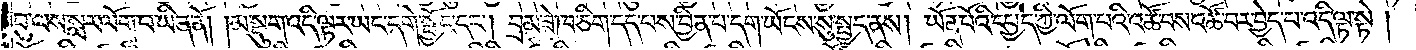བུ་ལས་སླར་ལོག་པ་ཡིན་ནོ། །མ་སྡུག་འདི་ལྟར་ཡང་དགེ་སྦྱོང་དང༌། བྲམ་ཟེ་ཁ་ཅིག་དད་པས་བྱིན་པ་དག་ཡོངས་སུ་སྤྱད་ནས། ཡོན་པོའི་དཔྱད་ཀྱི་ལོག་པའི་འཚོ་བར་བྱེད་པ་འདི་ལྟ་སྟེ།
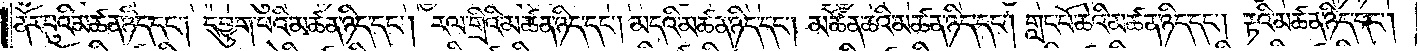ནོར་བུའི་མཚན་ཉིད་དང༌། དབྱུག་པའི་མཚན་ཉིད་དང༌། རལ་གྲིའི་མཚན་ཉིད་དང༌། མདའི་མཚན་ཉིད་དང༌། མཚོན་ཆའི་མཚན་ཉིད་དང༌། གླང་པོ་ཆེའི་མཚན་ཉིད་དང༌། རྟའི་མཚན་ཉིད་དང༌།
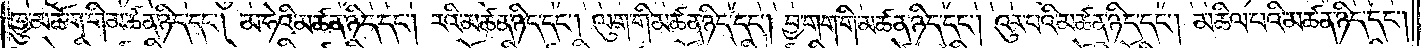ཁྱུ་མཆོག་གི་མཚན་ཉིད་དང༌། མ་ཧེའི་མཚན་ཉིད་དང༌། རའི་མཚན་ཉིད་དང༌། ལུག་གི་མཚན་ཉིད་དང༌། བྱ་གག་གི་མཚན་ཉིད་དང༌། འུར་པའི་མཚན་ཉིད་དང༌། མཆིལ་པའི་མཚན་ཉིད་དང༌།
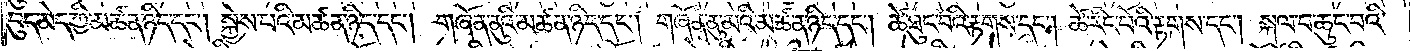བུད་མེད་ཀྱི་མཚན་ཉིད་དང༌། སྐྱེས་པའི་མཚན་ཉིད་དང༌། གཞོན་ནུའི་མཚན་ཉིད་དང༌། གཞོན་ནུ་མའི་མཚན་ཉིད་དང༌། ཚེ་ཐུང་བའི་རྟགས་དང༌། ཚེ་རིང་པོའི་རྟགས་དང༌། སྐལ་པ་ཆུང་བའི་
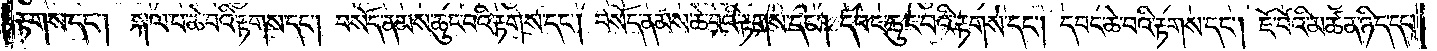རྟགས་དང༌། སྐལ་པ་ཆེ་བའི་རྟགས་དང༌། བསོད་ནམས་ཆུང་བའི་རྟགས་དང༌། བསོད་ནམས་ཆེ་བའི་རྟགས་དང༌། དབང་ཆུང་བའི་རྟགས་དང༌། དབང་ཆེ་བའི་རྟགས་དང༌། ཇོ་བོའི་མཚན་ཉིད་དང་།
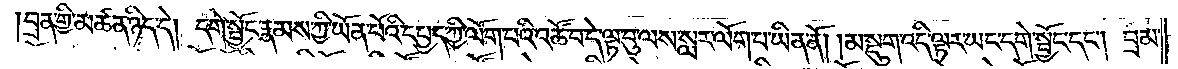བྲན་གྱི་མཚན་ཉིད་དེ། དགེ་སྦྱོང་རྣམས་ཀྱི་ཡོན་པོའི་དཔྱད་ཀྱི་ལོག་པའི་འཚོ་བ་དེ་ལྟ་བུ་ལས་སླར་ལོག་པ་ཡིན་ནོ། །མ་སྡུག་འདི་ལྟར་ཡང་དགེ་སྦྱོང་དང༌། བྲམ་
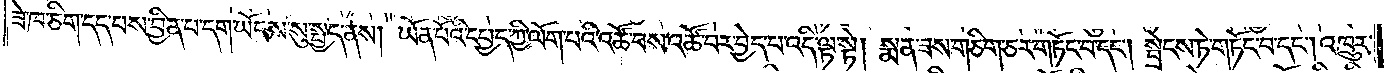ཟེ་ཁ་ཅིག་དད་པས་བྱིན་པ་དག་ཡོངས་སུ་སྤྱད་ནས། ཡོན་པོའི་དཔྱད་ཀྱི་ལོག་པའི་འཚོ་བས་འཚོ་བར་བྱེད་པ་འདི་ལྟ་སྟེ། སྨན་ཟས་གཅིག་ཅར་གཏོང་བ་དང༌། སྦྲེངས་ཏེ་གཏོང་བ་དང༌། འཁྲུར་
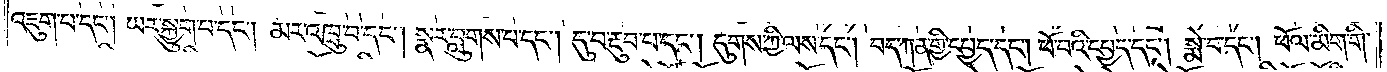འཇུག་པ་དང༌། ཡར་སྐྱུག་པ་དང༌། མར་འཁྲུ་བ་དང༌། སྣར་བླུགས་པ་དང༌། དུ་བ་རྔུབ་པ་དང༌། དུགས་ཀྱི་ལས་དང༌། བད་ཀན་གྱི་དཔྱད་དང༌། ཕོ་བའི་དཔྱད་དང༌། སྨེ་བ་དང༌། ཕོལ་མིག་གི་
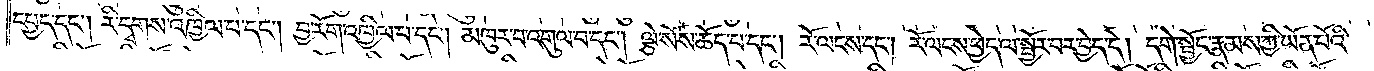དཔྱད་དང༌། རི་དྭགས་འཁྱིལ་པ་དང༌། བྱ་རོག་འཁྱིལ་པ་དང༌། མཁུར་བ་འགུལ་བ་དང༌། ལྕེ་སོས་ཆོད་པ་དང༌། རོ་ལངས་དང༌། རོ་ལངས་ཕྱེད་ལ་སྦྱོར་བར་བྱེད་དེ། དགེ་སྦྱོང་རྣམས་ཀྱི་ཡོན་པོའི་
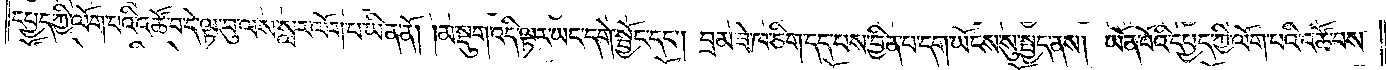དཔྱད་ཀྱི་ལོག་པའི་འཚོ་བ་དེ་ལྟ་བུ་ལས་སླར་ལོག་པ་ཡིན་ནོ། །མ་སྡུག་འདི་ལྟར་ཡང་དགེ་སྦྱོང་དང༌། བྲམ་ཟེ་ཁ་ཅིག་དད་པས་བྱིན་པ་དག་ཡོངས་སུ་སྤྱད་ནས། ཡོན་པོའི་དཔྱད་ཀྱི་ལོག་པའི་འཚོ་བས་
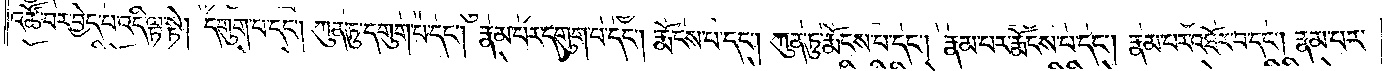འཚོ་བར་བྱེད་པ་འདི་ལྟ་སྟེ། དགུག་པ་དང༌། ཀུན་ཏུ་དགུག་པ་དང༌། རྣམ་པར་དགུག་པ་དང༌། རྨོངས་པ་དང༌། ཀུན་ཏུ་རྨོངས་པ་དང༌། རྣམ་པར་རྨོངས་པ་དང༌། རྣམ་པར་འཐོར་བ་དང༌། རྣམ་པར་
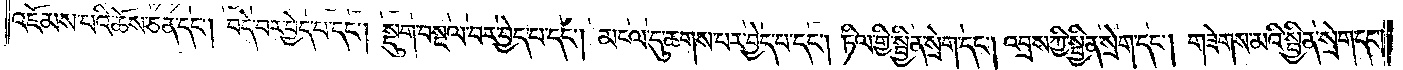འཇོམས་པའི་ཆོས་ཅན་དང༌། བདེ་བར་བྱེད་པ་དང༌། སྡུག་བསྔལ་བར་བྱེད་པ་དང༌། མངལ་དུ་ཆགས་པར་བྱེད་པ་དང༌། ཏིལ་གྱི་སྦྱིན་སྲེག་དང༌། འབྲས་ཀྱི་སྦྱིན་སྲེག་དང༌། གཟེགས་མའི་སྦྱིན་སྲེག་དང་
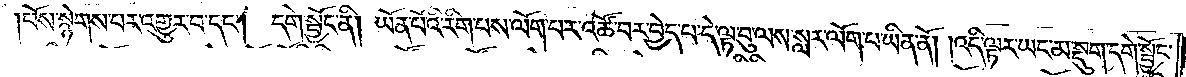པོས་སྙེགས་པར་འགྱུར་བ་དང༌། དགེ་སྦྱོང་ནི། ཡོན་པོའི་རིག་པས་ལོག་པར་འཚོ་བར་བྱེད་པ་དེ་ལྟ་བུ་ལས་སླར་ལོག་པ་ཡིན་ནོ། །འདི་ལྟར་ཡང་མ་སྡུག་དགེ་སྦྱོང་
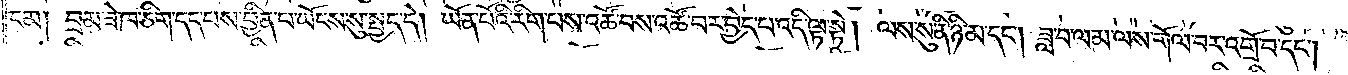ངམ། བྲམ་ཟེ་ཁ་ཅིག་དད་པས་བྱིན་པ་ཡོངས་སུ་སྤྱད་དེ། ཡོན་པོའི་རིག་པས་འཚོ་བས་འཚོ་བར་བྱེད་པ་འདི་ལྟ་སྟེ། ལས་སུ་ནི་ཉི་མ་དང༌། ཟླ་བ་ལམ་ལས་གོལ་བར་འགྲོ་བ་དང༌།
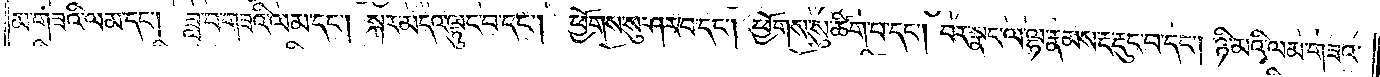མ་གཟའི་ལམ་དང༌། ཟླ་བ་གཟའི་ལམ་དང༌། སྐར་མདའ་ལྟུང་བ་དང༌། ཕྱོགས་སུ་ཤར་བ་དང༌། ཕྱོགས་སུ་ཚིག་པ་དང༌། བར་སྣང་ལ་ལྷ་རྣམས་རྔ་རྡུང་བ་དང༌། ཉི་མའི་ལམ་གཟའ་
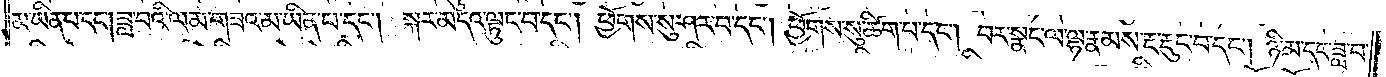མ་ཡིན་པ་དང༌། ཟླ་བའི་ལམ་གཟའ་མ་ཡིན་པ་དང༌། སྐར་མདའ་ལྟུང་བ་དང༌། ཕྱོགས་སུ་ཤར་བ་དང༌། ཕྱོགས་སུ་ཚིག་པ་དང༌། བར་སྣང་ལ་ལྷ་རྣམས་རྔ་རྡུང་བ་དང༌། ཉི་མ་དང་ཟླ་བ་
